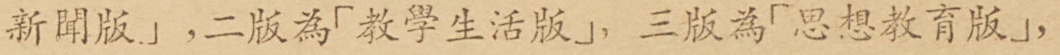新聞版」，二版為「教學生活版」，三版為「思想教育版」，
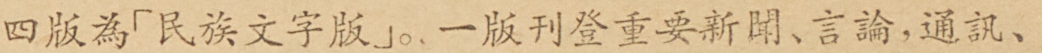四版為「民族文字版」。一版刊登重要新聞、言論，通訊、
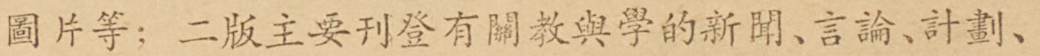圖片等；二版主要刊登有關教與學的新聞、言論、計劃、
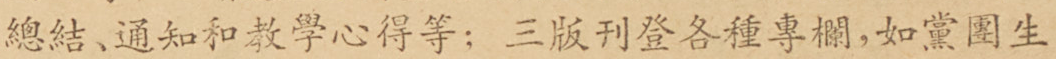總結、通知和教學心得等；三版刊登各種專欄，如黨團生
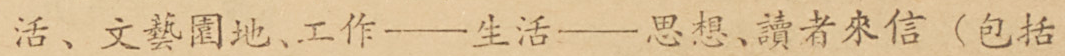活、文藝園地、工作——生活——思想、讀者來信（包括
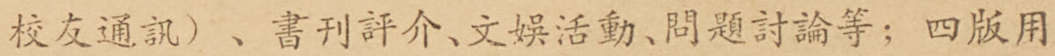校友通訊）、書刊評介、文娛活動、問題討論等；四版用
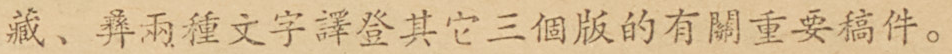藏、彝兩種文字譯登其他三個版的有關重要稿件。
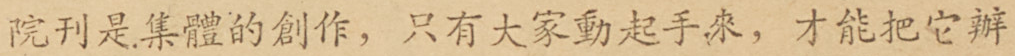院刊是集體的創作，只有大家動起手來，才能把它辦
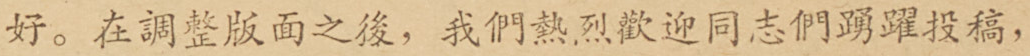好。在調整版面之後，我們熱烈歡迎同志們踊躍投稿，
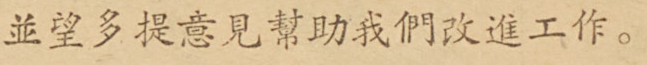並望多提意見幫助我們改進工作。
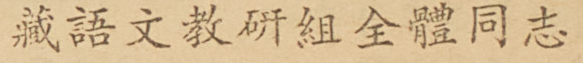藏語文教研組全體同志
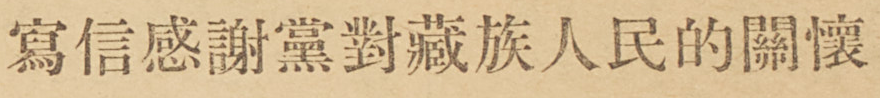寫信感謝黨對藏族人民的關懷
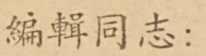編輯同志：
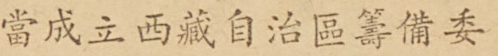當成立西藏自治區籌備委
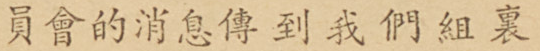員會的消息傳到我們組裏
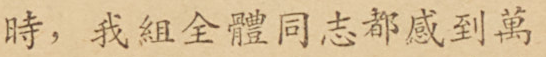時，我組全體同志都感到萬
